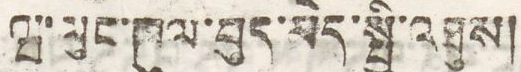ཝ་ལུང་ཁུལ་བྱེད་མེད་སྤྱི་འཐུས།
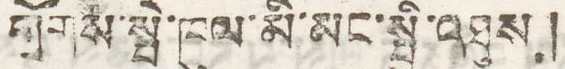གྲོགས་སྤེ་ཁུལ་མི་མང་སྤྱི་འཐུས།
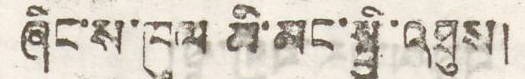ཞིང་ས་ཁུལ མི་མང་སྤྱི་འཐུས།
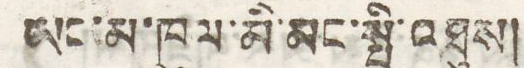ཨང་མ་ཁུལ་མི་མང་སྤྱི་འཐུས།
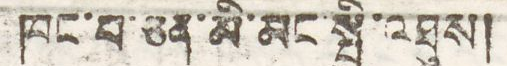ཁང་བ་ཅན་མི་མང་སྤྱི་འཐུས།
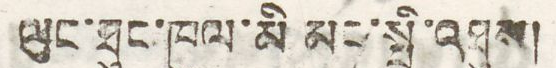ལུང་ཐུང་ཁུལ་མི མང་སྤྱི་འཐུས།
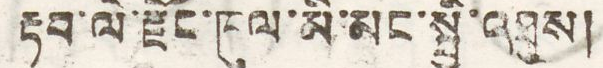རྟབ་ལེ་རྫོང་ཁུལ་མི་མང་སྤྱི་འཐུས།
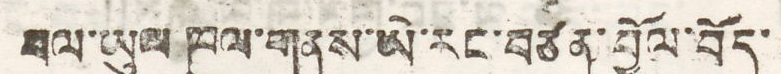བལ་ཡུལ་ཁུལ་གནས་ཡ་རང་བཙན་བྱོལ་བོད་
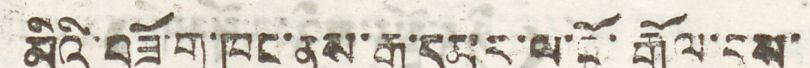མིའི་བཟོ་གྲ་ཁང་ནས་རྒྱ་དམར་ལ་ངོ་རྒོལ་བྱས་
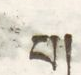པ།
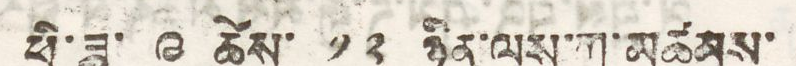ཕྱི་ཟླ་ ༩ ཚེས་ ༡༢ ཉིན་ལས་ཀ་མཚམས་
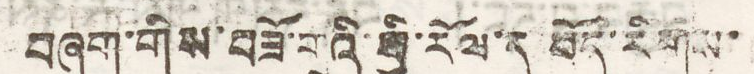བཞག་གིས་བཟོ་གྲའི་ཕྱི་རོལ་དུ བོད་རིགས་
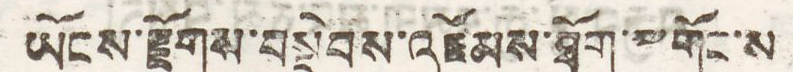ཡོངས་རྫོགས་བསྡེབས་འཛོམས་ཐོག་ ༸གོང་ས
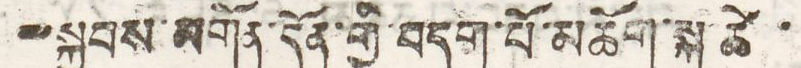༸སྐྱབས་མགོན་དོན་གྱི་བདག་པོ་མཆོག་སྐུ་ཚེ་
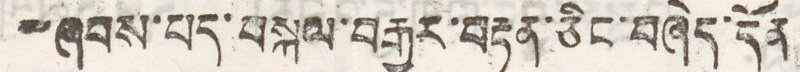༸ཞབས་པད་བསྐལ་བརྒྱར་བརྟན་ཅིང་བཞེད་དོན
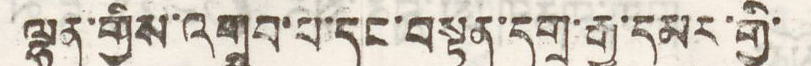ལྷུན་གྱིས་འགྲུབ་པ་དང་བསྟན་དགྲ་རྒྱ་དམར་གྱི་
